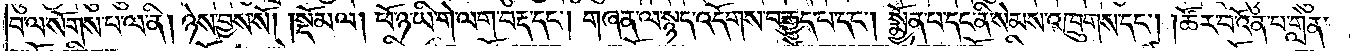པ་ལ་སོགས་པ་ལ་ནི། ཉེས་བྱས་སོ། །སྡོམ་ལ། ཕོ་ཉ་ཡི་གེ་ལག་བརྡ་དང༌། གཞན་ལ་སྙད་འདོགས་བརྒྱུད་པ་དང༌། སྨྱོན་པ་དང་ནི་སེམས་འཁྲུགས་དང༌། །ཚོར་བ་འོན་པ་གླེན་
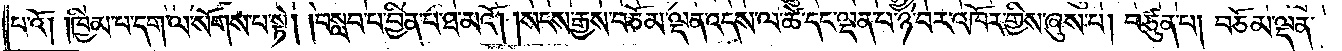པ་འོ། །ཁྱིམ་པ་དག་ལ་སོགས་པ་སྟེ། །བསླབ་པ་བྱིན་པ་ཐ་མའོ། །སངས་རྒྱས་བཅོམ་ལྡན་འདས་ལ་ཚེ་དང་ལྡན་པ་ཉེ་བར་འཁོར་གྱིས་ཞུས་པ། བཙུན་པ། བཅོམ་ལྡན་
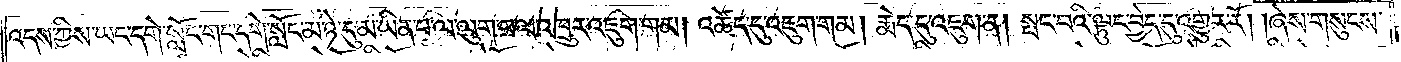འདས་ཀྱིས་ཡང་དགེ་སློང་གང་དགེ་སློང་མ་ཉེ་དུ་མ་ཡིན་པ་ལ་ལུག་བལ་འཁྲུར་འཇུག་གམ། འཚེད་དུ་འཇུག་གམ། རྨེད་དུ་འཇུག་ན། སྤང་བའི་ལྟུང་བྱེད་དུ་འགྱུར་རོ། །ཞེས་གསུངས་
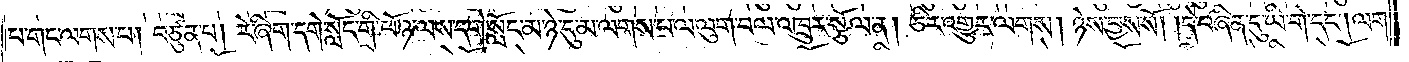པ་གང་ལགས་པ། བཙུན་པ། རེ་ཞིག་དགེ་སློང་གི་ཕོ་ཉ་ལས་དགེ་སློང་མ་ཉེ་དུ་མ་ལགས་པ་ལ་ལུག་བལ་འཁྲུར་སྩོལ་ན། ཅིར་འགྱུར་ལགས། ཉེས་བྱས་སོ། །དེ་བཞིན་དུ་ཡི་གེ་དང༌། ལག་
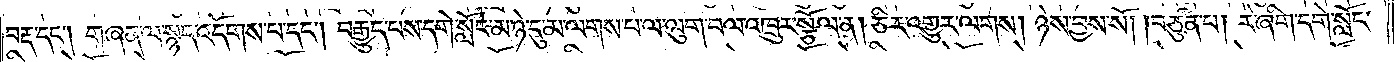བརྡ་དང༌། གཞན་ལ་སྙད་འདོགས་པ་དང༌། བརྒྱུད་པས་དགེ་སློང་མ་ཉེ་དུ་མ་ལགས་པ་ལ་ལུག་བལ་འཁྲུར་སྩོལ་ན། ཅིར་འགྱུར་ལགས། ཉེས་བྱས་སོ། །བཙུན་པ། རེ་ཞིག་དགེ་སློང་
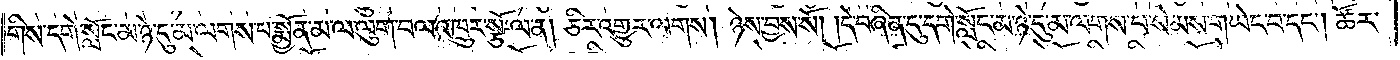གིས་དགེ་སློང་མ་ཉེ་དུ་མ་ལགས་པ་སྨྱོན་མ་ལ་ལུག་བལ་འཁྲུར་སྩོལ་ན། ཅིར་འགྱུར་ལགས། ཉེས་བྱས་སོ། །དེ་བཞིན་དུ་དགེ་སློང་མ་ཉེ་དུ་མ་ལགས་པ་སེམས་གཡེང་བ་དང༌། ཚོར་
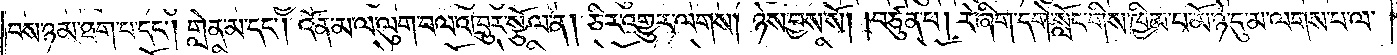བས་ཉམ་ཐག་པ་དང༌། གླེན་མ་དང༌། འོན་མ་ལ་ལུག་བལ་འཁྲུར་སྩོལ་ན། ཅིར་འགྱུར་ལགས། ཉེས་བྱས་སོ། །བཙུན་པ། རེ་ཞིག་དགེ་སློང་གིས་ཁྱིམ་པ་མོ་ཉེ་དུ་མ་ལགས་པ་ལ་
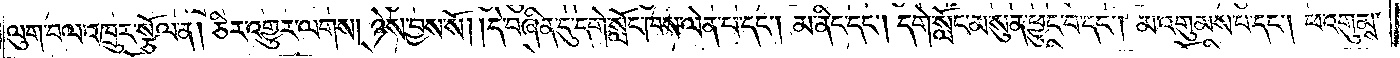ལུག་བལ་འཁྲུར་སྩོལ་ན། ཅིར་འགྱུར་ལགས། ཉེས་བྱས་སོ། །དེ་བཞིན་དུ་དགེ་སློང་ཁས་ལེན་པ་དང༌། མ་ནིང་དང༌། དགེ་སློང་མ་སུན་ཕྱུང་བ་དང༌། མ་འགུམས་པ་དང༌། ཕ་འགུམས་
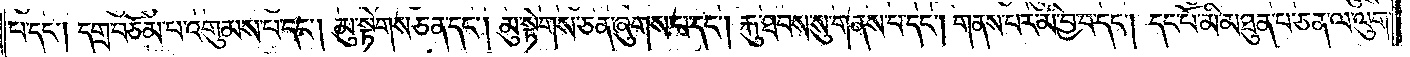པ་དང༌། དགྲ་བཅོམ་པ་འགུམས་པ་དང༌། མུ་སྟེགས་ཅན་དང༌། མུ་སྟེགས་ཅན་ཞུགས་པ་དང༌། རྐུ་ཐབས་སུ་གནས་པ་དང༌། གནས་པར་མི་བྱ་བ་དང༌། དང་པོ་མི་མཐུན་པ་ཅན་ལ་ལུག་
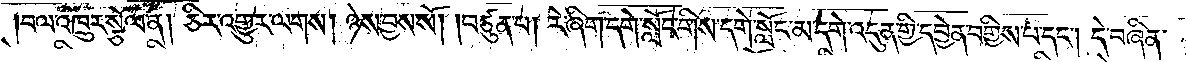།བལ་འཁྲུར་སྩོལ་ན། ཅིར་འགྱུར་ལགས། ཉེས་བྱས་སོ། །བཙུན་པ། རེ་ཞིག་དགེ་སློང་གིས་དགེ་སློང་མ་དགེ་འདུན་གྱིས་དབྱེན་བགྱིས་པ་དང༌། དེ་བཞིན་
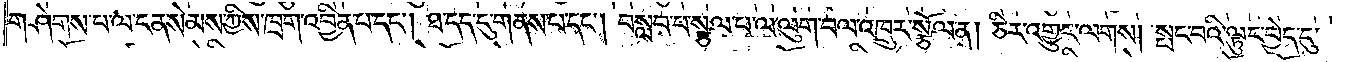གཤེགས་པ་ལ་ངན་སེམས་ཀྱིས་ཁྲག་འབྱིན་པ་དང༌། ཐ་དད་དུ་གནས་པ་དང༌། བསླབ་པ་སྩལ་པ་ལ་ལུག་བལ་འཁྲུར་སྩོལ་ན། ཅིར་འགྱུར་ལགས། སྤང་བའི་ལྟུང་བྱེད་དུ་
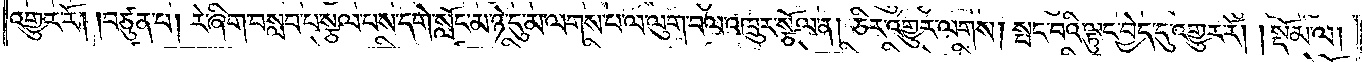འགྱུར་རོ། །བཙུན་པ། རེ་ཞིག་བསླབ་པ་སྩལ་པས་དགེ་སློང་མ་ཉེ་དུ་མ་ལགས་པ་ལ་ལུག་བལ་འཁྲུར་སྩོལ་ན། ཅིར་འགྱུར་ལགས། སྤང་བའི་ལྟུང་བྱེད་དུ་འགྱུར་རོ། །སྡོམ་ལ།
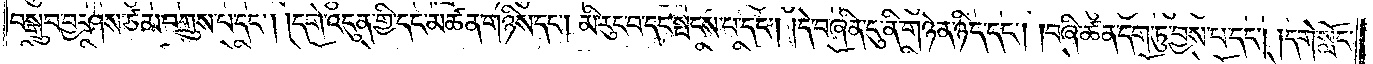བསྒྲུབ་བྱ་ཤས་ཙམ་བཀྲུས་པ་དང༌། །དགེ་འདུན་གྱི་དང་མཚན་གཉིས་དང༌། མི་རུང་བ་དང་སྤངས་པ་དང༌། །དེ་བཞིན་དུ་ནི་གཉེན་ཉིད་དང༌། །བཞི་ཚན་དག་ཏུ་བྱས་པ་དང༌། །དགེ་སློང་
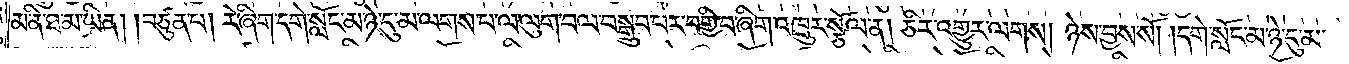མ་ནི་ཐ་མ་ཡིན། །བཙུན་པ། རེ་ཞིག་དགེ་སློང་མ་ཉེ་དུ་མ་ལགས་པ་ལ་ལུག་བལ་བསྒྲུབ་པར་བགྱི་བ་ཞིག་འཁྲུར་སྩོལ་ན། ཅིར་འགྱུར་ལགས། ཉེས་བྱས་སོ། །དགེ་སློང་མ་ཉེ་དུ་མ་
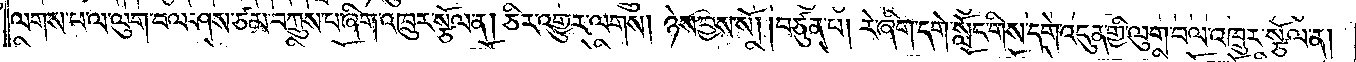ལགས་པ་ལ་ལུག་བལ་ཤས་ཙམ་བཀྲུས་པ་ཞིག་འཁྲུར་སྩོལ་ན། ཅིར་འགྱུར་ལགས། ཉེས་བྱས་སོ། །བཙུན་པ། རེ་ཞིག་དགེ་སློང་གིས་དགེ་འདུན་གྱི་ལུག་བལ་འཁྲུར་སྩོལ་ན།
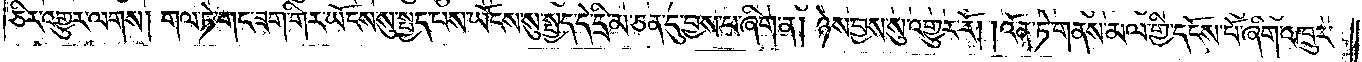ཅིར་འགྱུར་ལགས། གལ་ཏེ་གང་ཟག་གིར་ཡོངས་སུ་སྤྱད་པས་ཡོངས་སུ་སྤྱད་དེ་དྲི་མ་ཅན་དུ་བྱས་པ་ཞིག་ན། ཉེས་བྱས་སུ་འགྱུར་རོ། །འོན་ཏེ་གནས་མལ་གྱི་དངོས་པོ་ཞིག་འཁྲུར་
